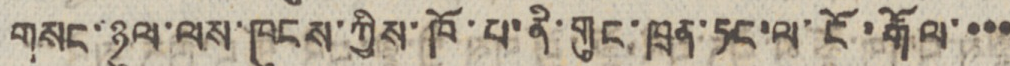གསང་ཉུལ་ལས་ཁུངས་ཀྱིས་ཁོ་པ་ནི་གུང་ཁྲན་ཏང་ལ་ངོ་རྒོལ་་་་
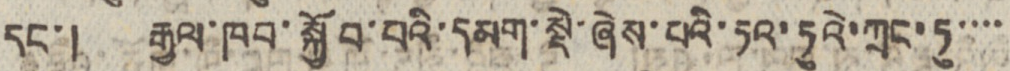དང་། རྒྱལ་ཁབ་སྐྱོབ་བའི་དམག་སྡེ་ཞེས་པའི་ཏའ་ཏུའེ་ཀྲང་ཏུ་་་་
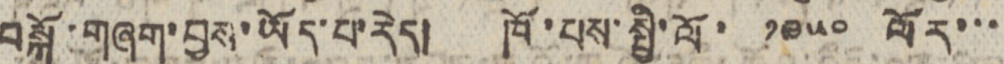བསྐོ་གཞག་བྱས་ཡོད་པ་རེད། ཁོ་པས་སྤྱི་ལོ་ ༡༩༥༠ ལོར་་་
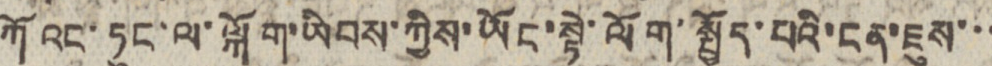ཀོའང་ཏུང་ལ་ལྐོག་ཡིབས་ཀྱིས་ཡོང་སྟེ་ལོག་སྤྱོད་པའི་ངན་ཇུས་་་
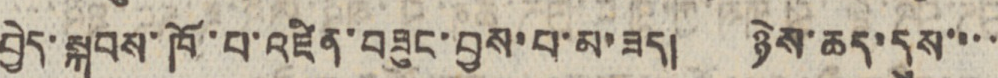བྱེད་སྐབས་ཁོ་བ་འཛིན་བཟུང་བྱས་པ་མ་ཟད། ཉེས་ཆད་དུས་་་་
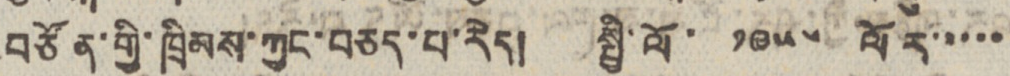བཙོན་གྱི་ཁྲིམས་ཀྱང་བཅད་པ་རེད། སྤྱི་ལོ་ ༡༩༥༦ ལོར་་་་་
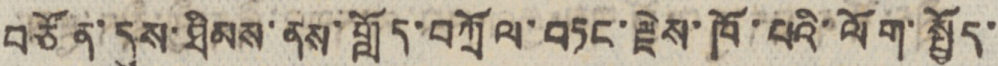བཙོན་དུས་ཐིམས་ནས་གློད་བཀྲོལ་བཏང་རྗེས་ཁོ་པའི་ལོག་སྤྱོད་
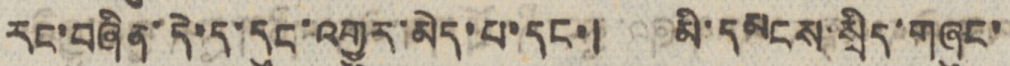རང་བཞིན་དེ་ད་དུང་འགྱུར་མེད་པ་དང་། མི་དམངས་སྲིད་གཞུང་
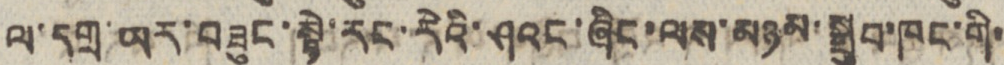ལ་དགྲ་ཡར་བཟུང་སྟེ་རང་རེའི་ཤའང་ཞིང་ལས་མཉམ་སྒྲུབ་ཁང་གི་
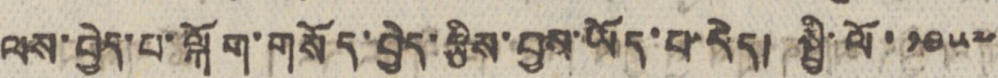ལས་བྱེད་པ་ལྐོག་གསོད་བྱེད་རྩིས་བྱས་ཡོད་པ་རེད། སྤྱི་ལོ་ ༡༩༥༧
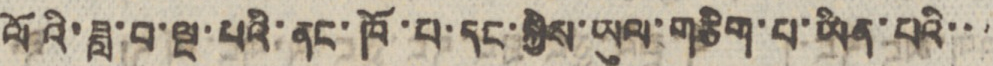ལོའི་ཟླ་བ་ལྔ་པའི་ནང་ཁོ་པ་དང་སྐྱེས་ཡུལ་གཅིག་པ་ཡིན་པའི་་་
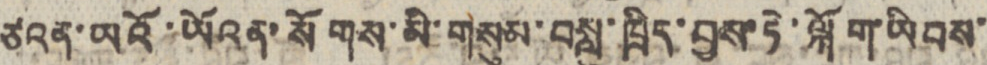ཙའན་ཡའོ་ཡོའན་སོགས་མི་གསུམ་བསླུ་ཁྲིད་བྱས་ཏེ་ལྐོག་ཡིབས་
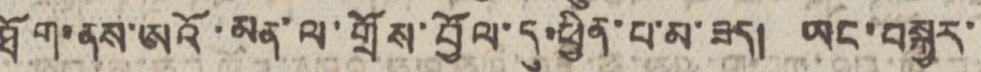ཐོག་ནས་ཨའོ་མན་ལ་གྲོས་བྱོལ་དུ་ཕྱིན་པ་མ་ཟད། ཡང་བསྐྱར་
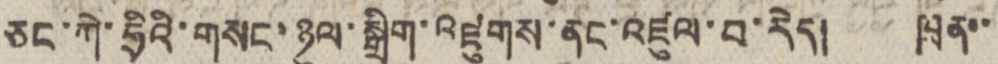ཅང་ཀེ་ཧྲིའི་གསང་ཉུལ་སྒྲིག་འཛུགས་ནང་འཛུལ་བ་རེད། ཁྲན་་
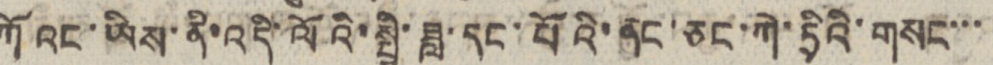ཀོའང་ཡིས་ནི་འདི་ལོའི་སྤྱི་ཟླ་དང་པོའི་ནང་ཅང་ཀེ་ཧྲིའི་གསང་་་
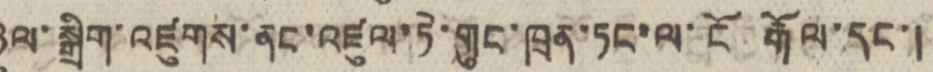ཉུལ་སྒྲིག་འཛུགས་ནང་འཛུལ་ཏེ་གུང་ཁྲན་ཏང་ལ་ངོ རྒོལ་དང་།
